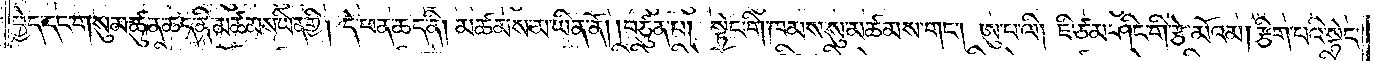ཕྱེད་དང་གསུམ་ཚུན་ཆད་ནི་མཚམས་ཡིན་གྱི། དེ་ཕན་ཆད་ནི། མཚམས་མ་ཡིན་ནོ། །བཙུན་པ། སྟེང་གི་ཁམས་སུ་མཚམས་གང༌། ཨུ་པ་ལི། ཇི་ཙམ་ཤིང་གི་རྩེ་མོའམ། རྩིག་པའི་སྟེང་
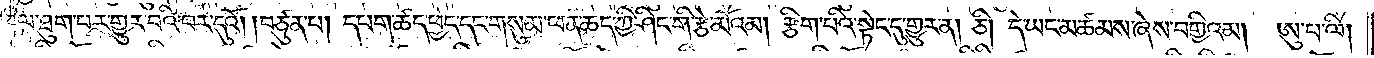ལ་ཐུག་པར་གྱུར་བའི་བར་དུའོ། །བཙུན་པ། དཔག་ཚད་ཕྱེད་དང་གསུམ་ཕན་ཆད་ཀྱི་ཤིང་གི་རྩེ་མོའམ། རྩིག་པའི་སྟེང་དུ་གྱུར་ན། ཅི། དེ་ཡང་མཚམས་ཞེས་བགྱིའམ། ཨུ་པ་ལི།
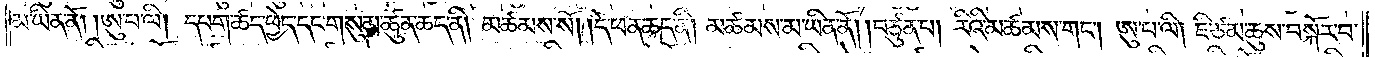མ་ཡིན་ནོ། །ཨུ་པ་ལི། དཔག་ཚད་ཕྱེད་དང་གསུམ་ཚུན་ཆད་ནི། མཚམས་སོ་།དེ་ཕན་ཆད་ནི། མཚམས་མ་ཡིན་ནོ། །བཙུན་པ། རིའི་མཚམས་གང༌། ཨུ་པ་ལི། ཇི་ཙམ་ཆུས་བསྐོར་བ་
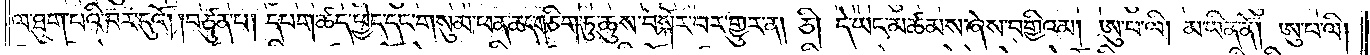ལ་ཐུག་པའི་བར་དུའོ། །བཙུན་པ། དཔག་ཚད་ཕྱེད་དང་གསུམ་ཕན་ཆད་གཅིག་ཏུ་ཆུས་བསྐོར་བར་གྱུར་ན། ཅི། དེ་ཡང་མཚམས་ཞེས་བགྱིའམ། ཨུ་པ་ལི། མ་ཡིན་ནོ། །ཨུ་པ་ལི།
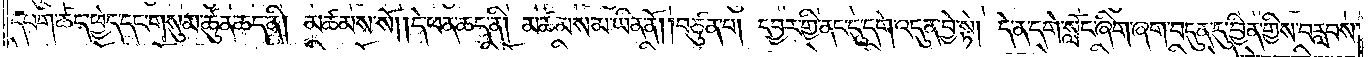དཔག་ཚད་ཕྱེད་དང་གསུམ་ཚུན་ཆད་ནི། མཚམས་སོ། །དེ་ཕན་ཆད་ནི། མཚམས་མ་ཡིན་ནོ། །བཙུན་པ། དབྱར་གྱི་ནང་དུ་དགེ་འདུན་བྱེ་སྟེ། དེ་ན་དགེ་སློང་ཞིག་ཞག་བདུན་དུ་བྱིན་གྱིས་བརླབས་
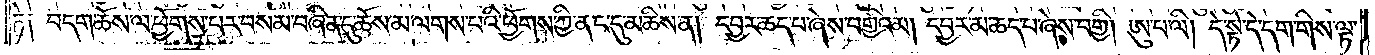ཏེ༑ བདག་ཆོས་ལ་ཕྱོགས་པར་བསམ་བཞིན་དུ་ཆོས་མ་ལགས་པའི་ཕྱོགས་ཀྱི་ནང་དུ་མཆིས་ན། དབྱར་ཆད་པ་ཞེས་བགྱིའམ། དབྱར་མ་ཆད་པ་ཞེས་བགྱི། ཨུ་པ་ལི། དེ་སྟེ་དེ་དག་གིས་ལྟ་
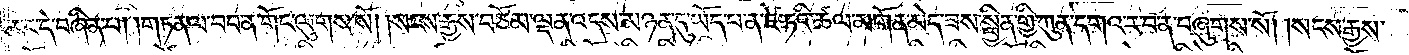དང་དེ་བཞིན་པ། །གཏན་ལ་བབ་ན་གོང་ལུགས་སོ། །སངས་རྒྱས་བཅོམ་ལྡན་འདས་མཉན་དུ་ཡོད་པ་ན་ཛེ་ཏའི་ཚལ་མགོན་མེད་ཟས་སྦྱིན་གྱི་ཀུན་དགའ་ར་བ་ན་བཞུགས་སོ། །སངས་རྒྱས་
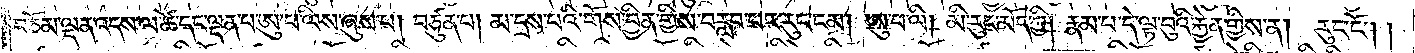བཅོམ་ལྡན་འདས་ལ་ཚེ་དང་ལྡན་པ་ཨུ་པ་ལིས་ཞུས་པ། བཙུན་པ། མ་དྲས་པའི་གོས་བྱིན་གྱིས་བརླབ་པར་རུང་ངམ། ཨུ་པ་ལི། མི་རུང་མོད་ཀྱི། རྣམ་པ་དེ་ལྟ་བུའི་རྐྱེན་གྱིས་ན། རུང་ངོ༌། །
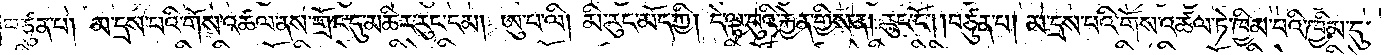བཙུན་པ། མ་དྲས་པའི་གོས་འཚལ་ནས་གྲོང་དུ་མཆིར་རུང་ངམ། ཨུ་པ་ལི། མི་རུང་མོད་ཀྱི། དེ་ལྟ་བུའི་རྐྱེན་གྱིས་ན། རུང་ངོ༌། །བཙུན་པ། མ་དྲས་པའི་གོས་འཚལ་ཏེ་ཁྱིམ་པའི་ཁྱིམ་དུ་
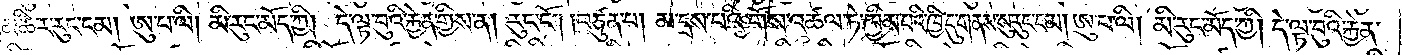མཆིར་རུང་ངམ། ཨུ་པ་ལི། མི་རུང་མོད་ཀྱི། དེ་ལྟ་བུའི་རྐྱེན་གྱིས་ན། རུང་ངོ༌། །བཙུན་པ། མ་དྲས་པའི་གོས་འཚལ་ཏེ་ཁྱིམ་པའི་ཁྱིམ་དུ་གནས་སུ་རུང་ངམ། ཨུ་པ་ལི། མི་རུང་མོད་ཀྱི། དེ་ལྟ་བུའི་རྐྱེན་
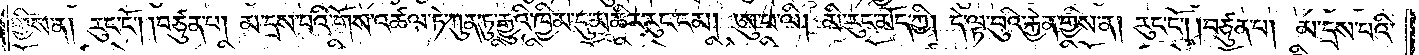གྱིས་ན། རུང་ངོ༌། །བཙུན་པ། མ་དྲས་པའི་གོས་འཚལ་ཏེ་ཀུན་ཏུ་རྒྱུའི་ཁྱིམ་དུ་མཆིར་རུང་ངམ། ཨུ་པ་ལི། མི་རུང་མོད་ཀྱི། དེ་ལྟ་བུའི་རྐྱེན་གྱིས་ན། རུང་ངོ༌། །བཙུན་པ། མ་དྲས་པའི་
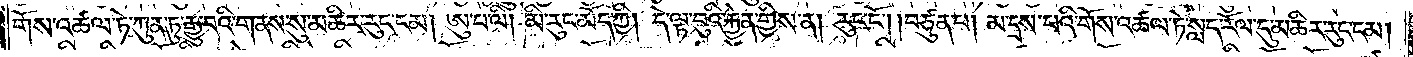གོས་འཚལ་ཏེ་ཀུན་ཏུ་རྒྱུ་བའི་གནས་སུ་མཆིར་རུང་ངམ། ཨུ་པ་ལི། མི་རུང་མོད་ཀྱི། དེ་ལྟ་བུའི་རྐྱེན་གྱིས་ན། རུང་ངོ༌། །བཙུན་པ། མ་དྲས་པའི་གོས་འཚལ་ཏེ་སླད་རོལ་དུ་མཆིར་རུང་ངམ།
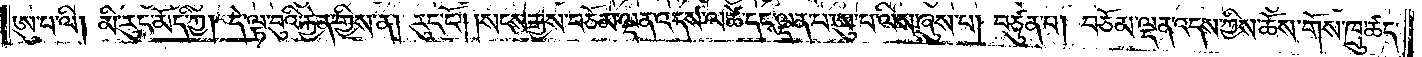ཨུ་པ་ལི། མི་རུང་མོད་ཀྱི། དེ་ལྟ་བུའི་རྐྱེན་གྱིས་ན། རུང་ངོ༌། །སངས་རྒྱས་བཅོམ་ལྡན་འདས་ལ་ཚེ་དང་ལྡན་པ་ཨུ་པ་ལིས་ཞུས་པ། བཙུན་པ། བཅོམ་ལྡན་འདས་ཀྱིས་ཆོས་གོས་ཁྲུ་ཚད་
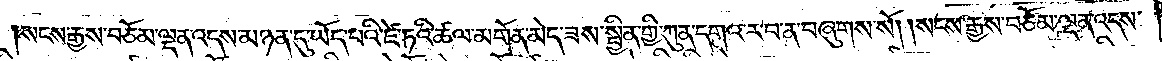སངས་རྒྱས་བཅོམ་ལྡན་འདས་མཉན་དུ་ཡོད་པའི་ཛེ་ཏའི་ཚལ་མགོན་མེད་ཟས་སྦྱིན་གྱི་ཀུན་དགའ་ར་བ་ན་བཞུགས་སོ། །སངས་རྒྱས་བཅོམ་ལྡན་འདས་
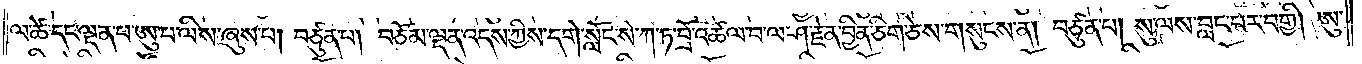ལ་ཚེ་དང་ལྡན་པ་ཨུ་པ་ལིས་ཞུས་པ། བཙུན་པ། བཅོམ་ལྡན་འདས་ཀྱིས་དགེ་སློང་སེ་ཀ་ཏ་བྲོ་འཚལ་བ་ལ་ཤ་རྗེན་བྱིན་ཅིག་ཅེས་གསུངས་ན། བཙུན་པ། སུ་ལས་བླང་པར་བགྱི། ཨུ་
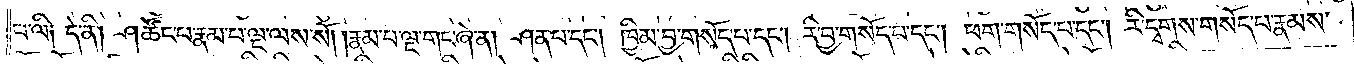པ་ལི༑ དེ་ནི། ཤ་ཚོང་པ་རྣམ་པ་ལྔ་ལས་སོ། །རྣམ་པ་ལྔ་གང་ཞེ་ན། ཤན་པ་དང༌། ཁྱིམ་བྱ་གསོད་པ་དང༌། རི་བྱ་གསོད་པ་དང༌། ཕག་གསོད་པ་དང༌། རི་དྭགས་གསོད་པ་རྣམས་
